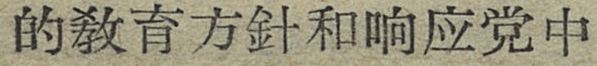的敎育方針和响应党中
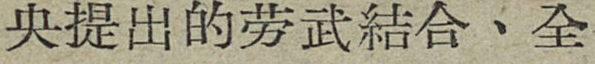央提出的劳武結合、全
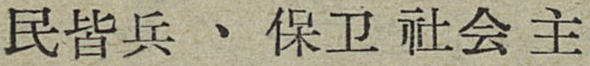民皆兵 、保卫 社会 主
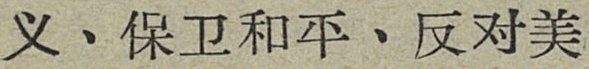义、保卫和平、反对美
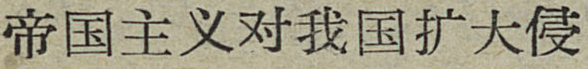帝国主义对我国扩大侵
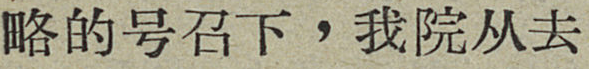略的号召下，我院从去
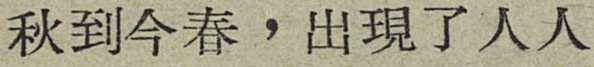秋到今春，出現了人人
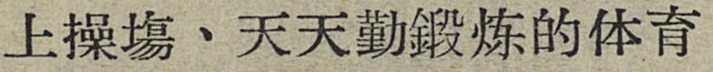上操塲、天天勤鍛炼的体育
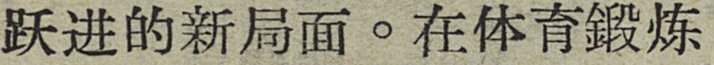跃进的新局面。在体育鍛炼
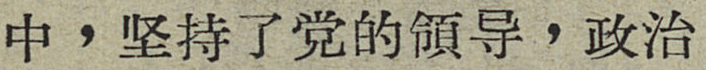中，坚持了党的領导，政治
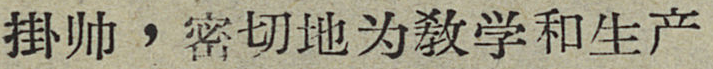掛帅，密切地为敎学和生产
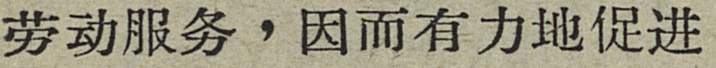劳动服务，因而有力地促进
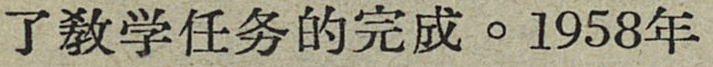了敎学任务的完成。1958年
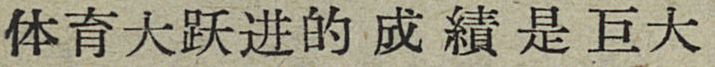体育大跃进的成績是巨大
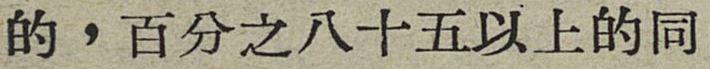的，百分之八十五以上的同
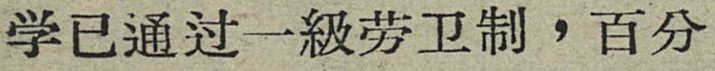学已通过一級劳卫制，百分
